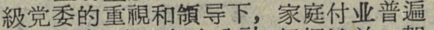級党委的重視和領导下，家庭付业普遍
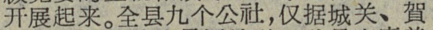开展起来。全县九个公社，仅据城关、賀
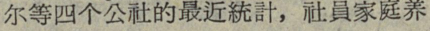尔等四个公社的最近統計，社員家庭养
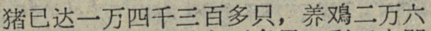猪已达一万四千三百多只，养鳮二万六
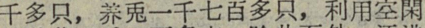千多只，养兎一千七百多只，利用空閒
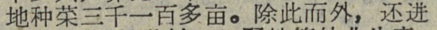地种菜三千一百多亩。除此而外，还进
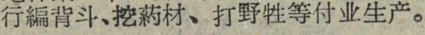行編背斗、挖葯材、打野牲等付业生产。
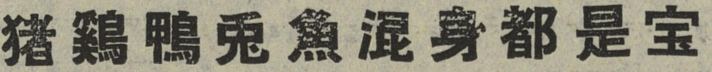猪雞鴨兎魚混身都是宝
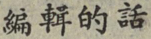編輯的話
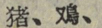猪、鳮、
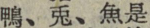鴨、兎、魚是
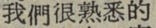我們很熟悉的
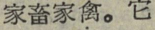家畜家禽。它
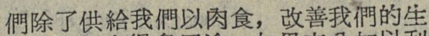們除了供給我們以肉食，改善我們的生
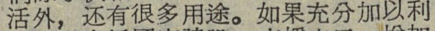活外，还有很多用途。如果充分加以利
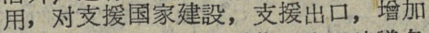用，对支援国家建設，支援出口，增加
